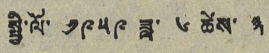སྤྱི་ལོ་ ༡༩༥༩ ཟླ་ ༦ ཚེས་ ༣
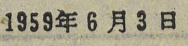1959年6月3日
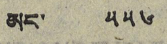ཨང་ ༥༥༦
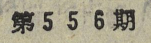第 556 期：
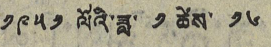༡༩༥༡ ལོའི་ཟླ་ ༡ ཚེས་ ༡༦
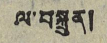ལ་བསྐྲུན།
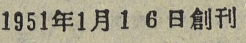1951年1月16日創刊
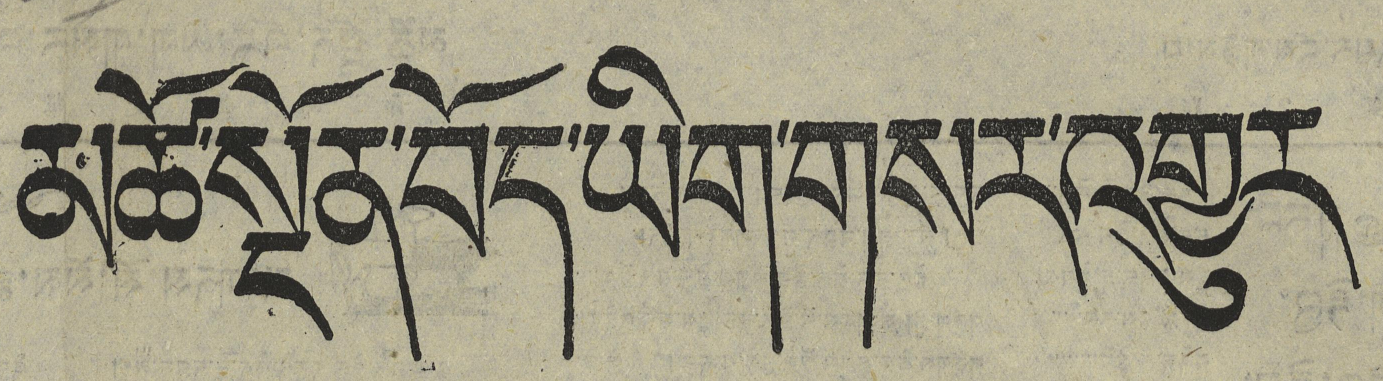མཚོ་སྔོན་བོད་ཡིག་གསར་འགྱུར།
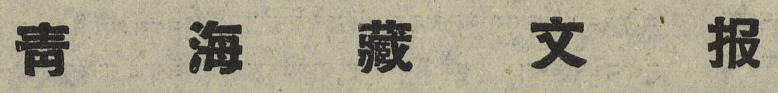靑 海 藏 文 报
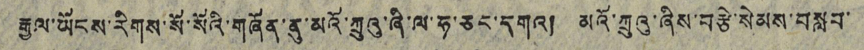རྒྱལ་ཡོངས་རིགས་སོ་སོའི་གཞོན་ནུ་མའོ་ཀྲུའུ་ཞི་ལ་ཧ་ཅང་དགའ། མའོ་ཀྲུའུ་ཞིས་བརྩེ་སེམས་བསླབ་
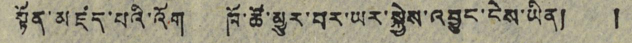སྟོན་མཛད་པའི་འོག ཁོ་ཚོ་མྱུར་བར་ཡར་སྐྱེས་འབྱུང་ངེས་ཡིན། །
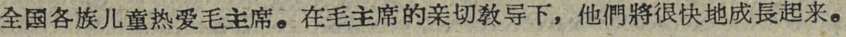全国各族儿童热爱毛主席。在毛主席的亲切敎导下，他們將很快地成長起来。
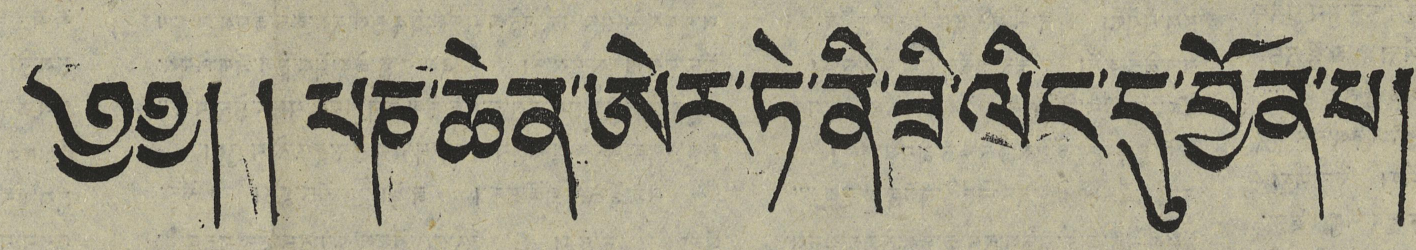༄༅། །པཎ་ཆེན་ཨེར་ཏེ་ནི་ཟི་ལིང་དུ་བྱོན་པ།
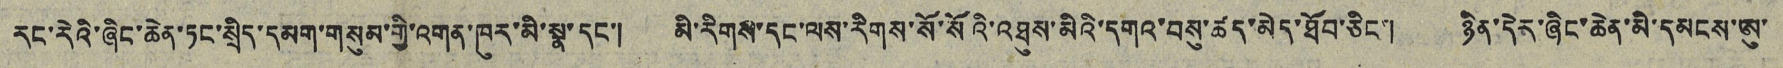རང་རེའི་ཞིང་ཆེན་ཏང་སྲིད་དམག་གསུམ་གྱི་འགན་ཁུར་མི་སྣ་དང་། མི་རིགས་དང་ལས་རིགས་སོ་སོའི་འཐུས་མིའི་དགའ་བསུ་ཚད་མེད་ཐོབ་ཅིང་། ཉིན་དེར་ཞིང་ཆེན་མི་དམངས་ཨུ་
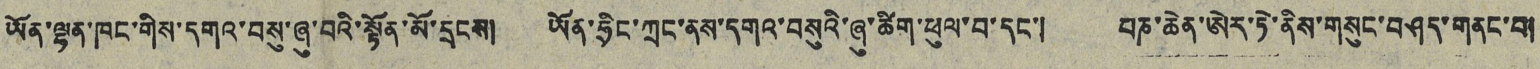ཡོན་ལྷན་ཁང་གིས་དགའ་བསུ་ཞུ་བའི་སྟོན་མོ་དྲངས། ཡོན་ཧྲིང་ཀྲང་ནས་དགའ་བསུའི་ཞུ་ཚིག་ཕུལ་བ་དང་། པཎ་ཆེན་ཨེར་ཏེ་ནིས་གསུང་བཤད་གནང་བ།
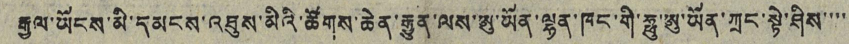རྒྱལ་ཡོངས་མི་དམངས་འཐུས་མིའི་ཚོགས་ཆེན་རྒྱུན་ལས་ཨུ་ཡོན་ལྷན་ཁང་གི་ཧྥུ་ཨུ་ཡོན་ཀྲང་སྟེ་ཤིས་་་་
